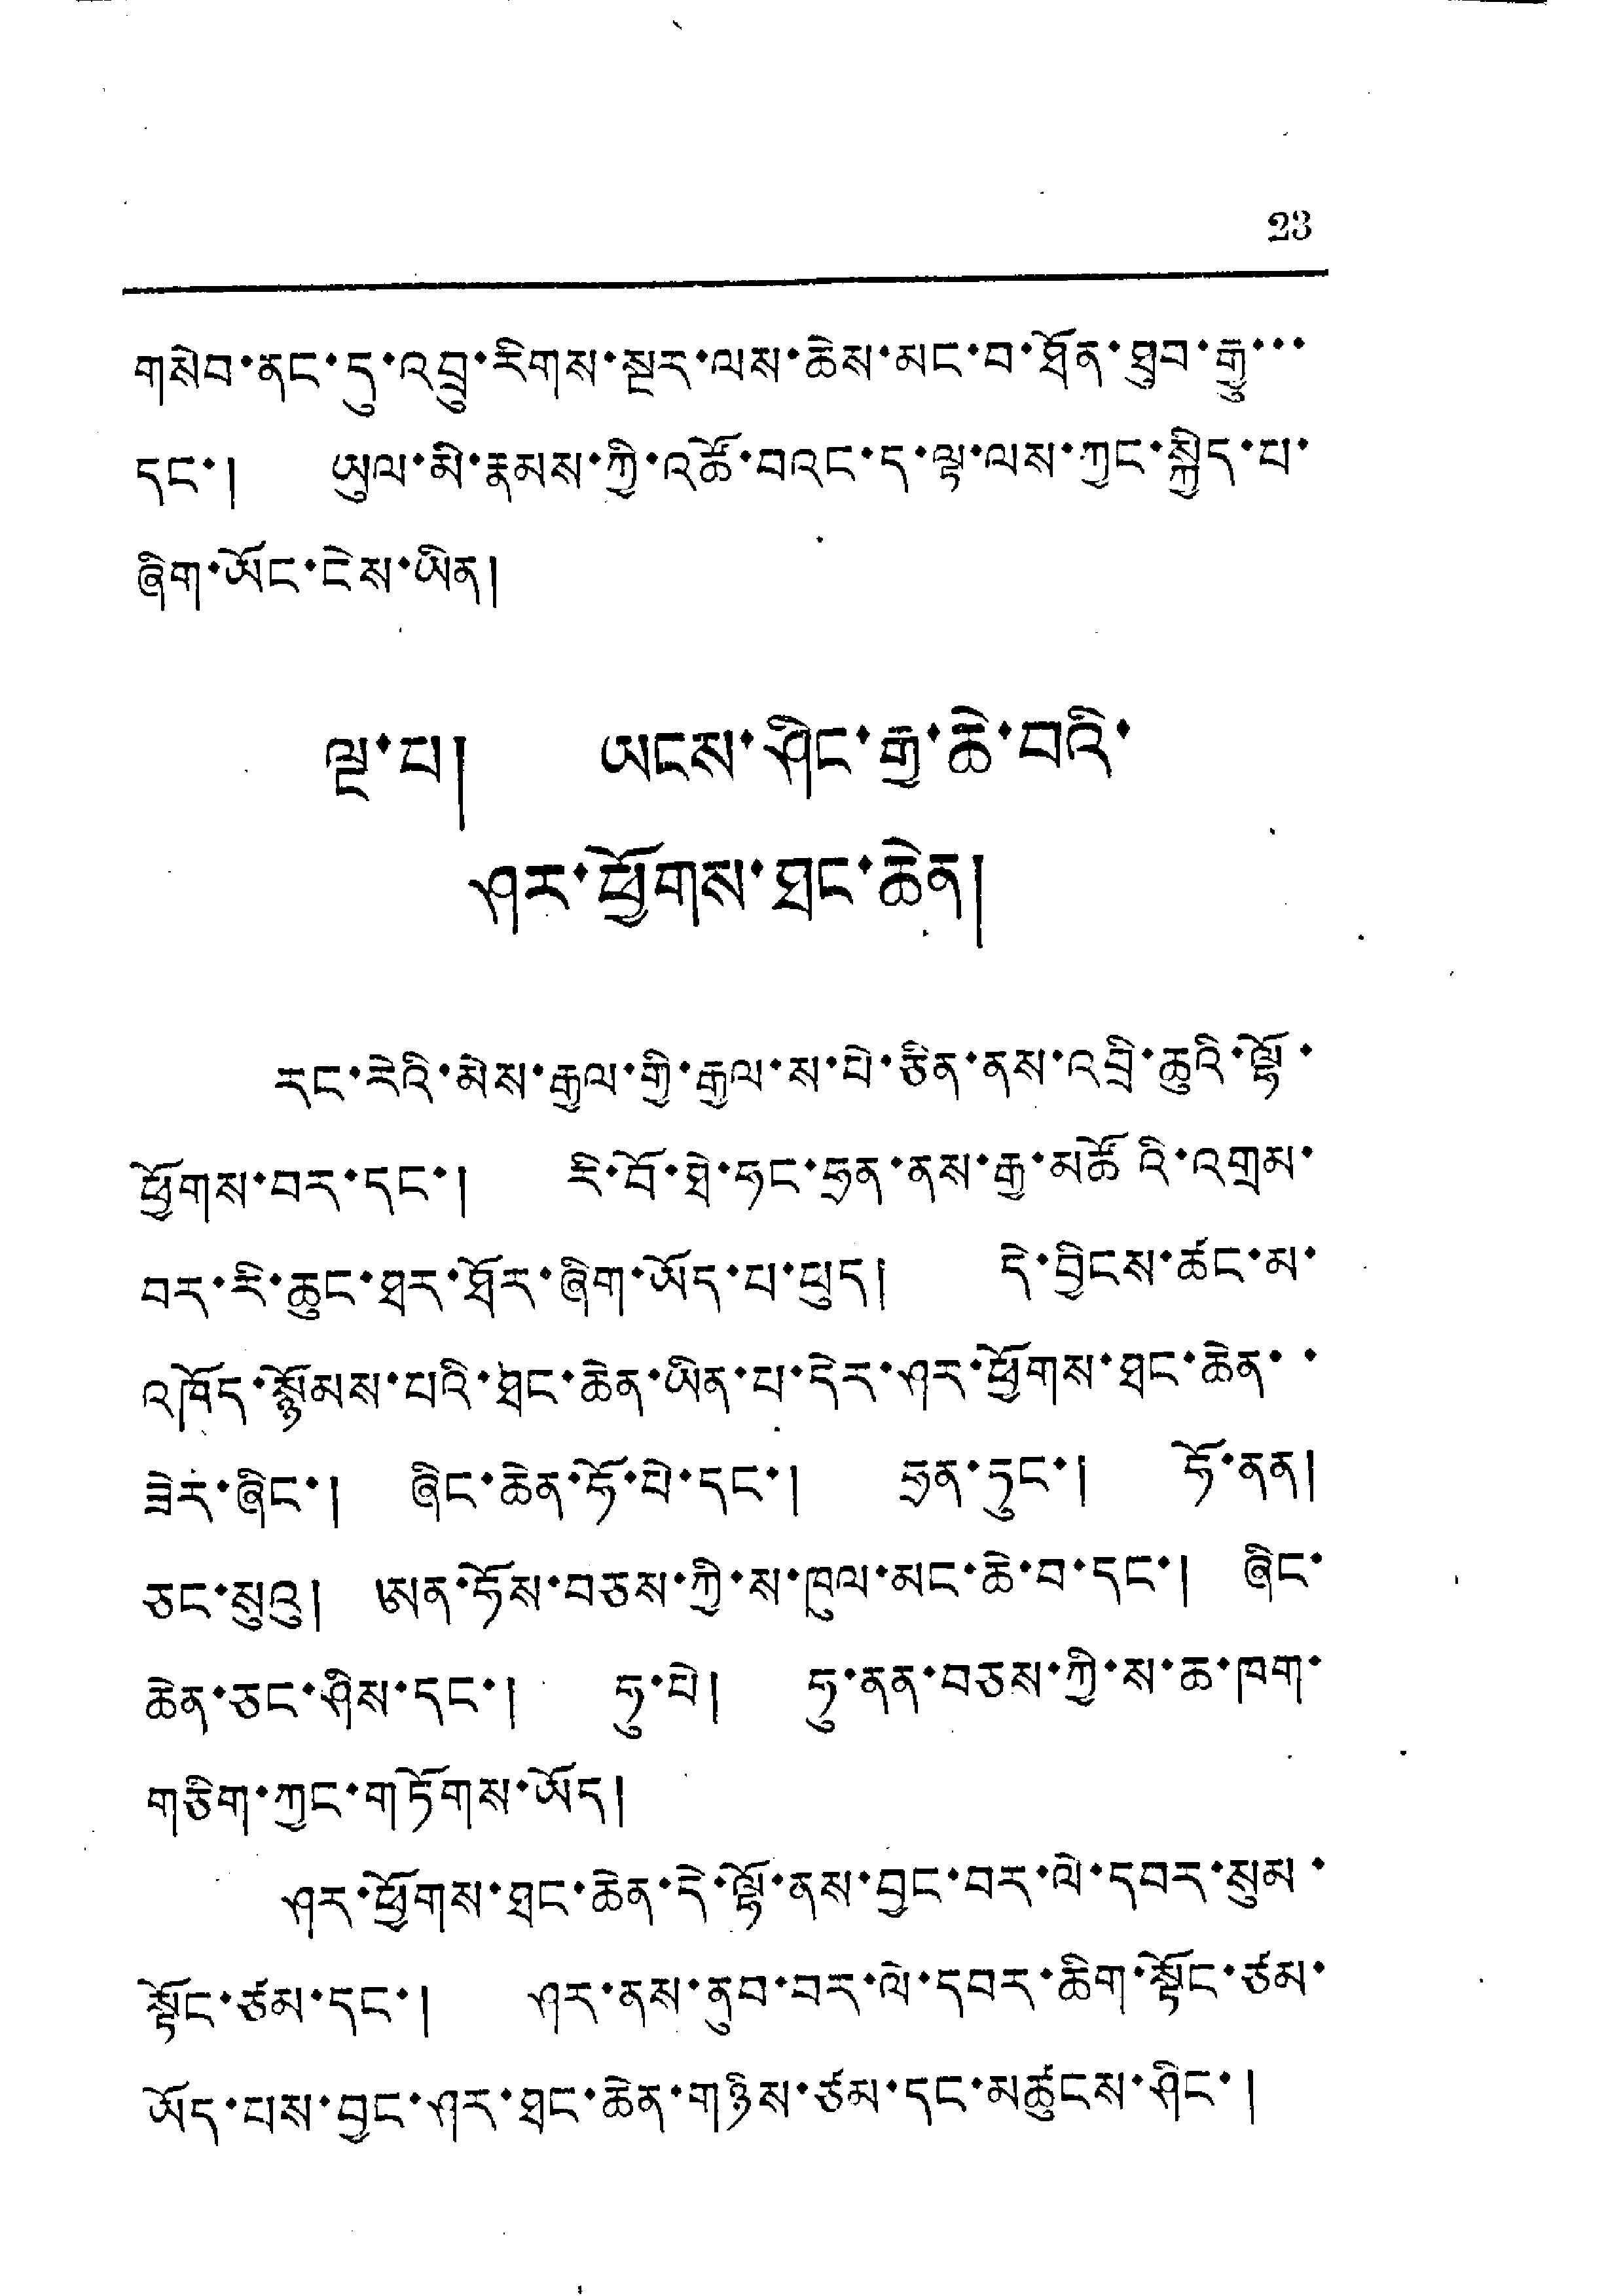23
གསེབ་ནང་དུ་འབྲུ་རིགས་སྔར་ལས་ཆེས་མང་བ་ཐོན་ཐུབ་རྒྱུ་་་
དང་། ཡུལ་མི་རྣམས་ཀྱི་འཚོ་བའང་ད་ལྟ་ལས་ཀྱང་སྐྱིད་པ་
ཞིག་ཡོང་ངེས་ཡིན།
ལྔ་པ། ཡངས་ཤིང་རྒྱ་ཆེ་བའི་
ཤར་ཕྱོགས་ཐང་ཆེན།
རང་རེའི་མེས་རྒྱལ་གྱི་རྒྱལ་ས་པེ་ཅིན་ནས་འབྲི་ཆུའི་ལྷོ་
ཕྱོགས་བར་དང་། རི་བོ་ཐེ་ཧང་ཧྲན་ནས་རྒྱ་མཚོའི་འགྲམ་
བར་རི་ཆུང་ཐར་ཐོར་ཞིག་ཡོད་པ་ཕུད། དེ་བྱིངས་ཚང་མ་
འཁོད་སྙོམས་པའི་ཐང་ཆེན་ཡིན་པ་དེར་ཤར་ཕྱོགས་ཐང་ཆེན་་་
ཟེར་ཞིང་། ཞིང་ཆེན་ཧོ་པེ་དང་། ཧྲན་ཏུང་། ཧོ་ནན།
ཅང་སུའུ། ཨན་ཧོས་བཅས་ཀྱི་ས་ཁུལ་མང་ཆེ་བ་དང་། ཞིང་
ཆེན་ཅང་ཤིས་དང་། ཧུ་པེ། ཧུ་ནན་བཅས་ཀྱི་ས་ཆ་ཁག་
གཅིག་ཀྱང་གཏོགས་ཡོད།
ཤར་ཕྱོགས་ཐང་ཆེན་དེ་ལྟོ་ནས་བྱང་བར་ལེ་དབར་སུམ་
སྟོང་ཙམ་དང་། ཤར་ནས་ནུབ་བར་ལེ་དབར་ཆིག་སྟོང་ཙམ་
ཡོད་པས་བྱང་ཤར་ཐང་ཆེན་གཉིས་ཙམ་དང་མཚུངས་ཤིང་།
